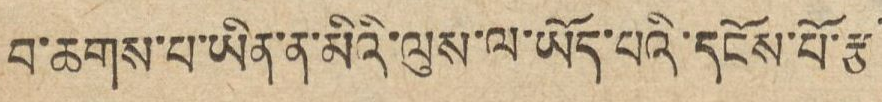བ་ཆགས་པ་ཡིན་ན་མིའི་ལུས་ལ་ཡོད་པའི་དངོས་པོ་རྩ་
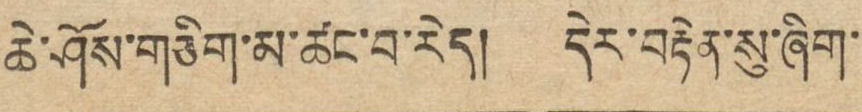ཆེ་ཤོས་གཅིག་མ་ཚང་བ་རེད། དེར་བརྟེན་སུ་ཞིག་
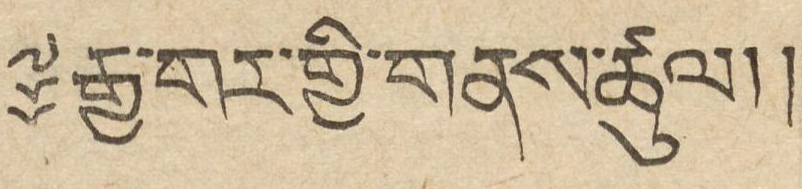༈ རྒྱ་གར་གྱི་གནས་ཚུལ།།
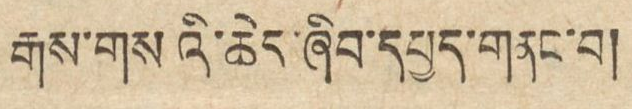རྒས་གསའི་ཆེད་ཞིབ་དཔྱད་གནང་བ།
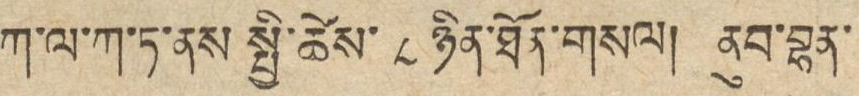ཀ་ལ་ཀ་ཏ་ནས སྤྱི་ཚེས་ ༨ ཉིན་ཐོན་གསལ། ནུབ་བྷན་
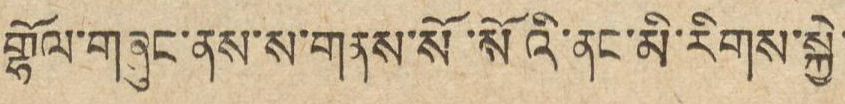གྷོལ་གཞུང་ནས་ས་གནས་སོ་སོའི་ནང་མི་རིགས་སྐྱེ་
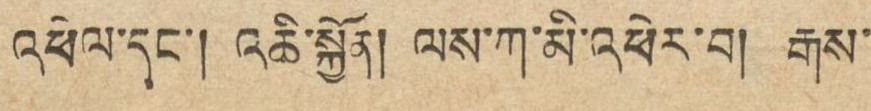འཕེལ་དང་། འཆི་སྐྱོན། ལས་ཀ་མི་འཕེར་བ། རྒས་
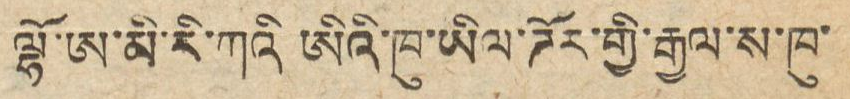ལྷོ་ཨ་མི་རི་ཀའི ཨིའི་ཁུ་ཡིལ་ཌོར་གྱི་རྒྱལ་ས་ཁུ་
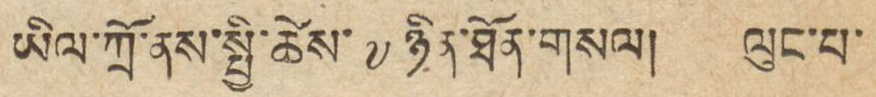ཡིལ་ཀྲོ་ནས་སྤྱི་ཚེས་ ༧ ཉིན་ཐོན་གསལ། ལུང་པ་
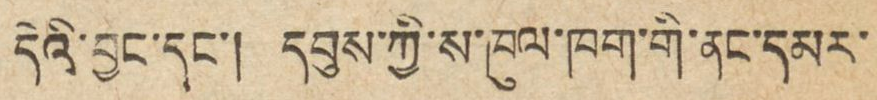དེའི་བྱང་དང་། དབུས་ཀྱི་ས་ཁུལ་ཁག་གི་ནང་དམར་
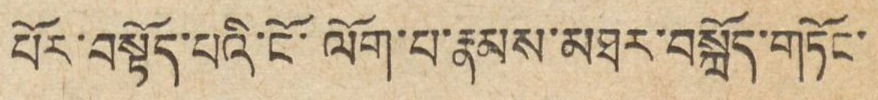པོར་བསྟོད་པའི་ངོ་ལོག་པ་རྣམས་མཐར་བསྐྲོད་གཏོང་
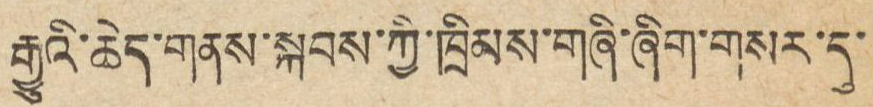རྒྱུའི་ཆེད་གནས་སྐབས་ཀྱི་ཁྲིམས་གཞི་ཞིག་གསར་དུ་
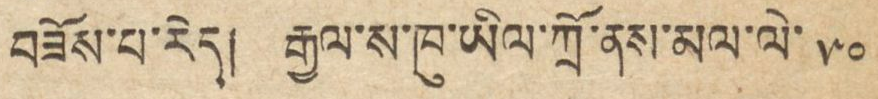བཟོས་པ་རེད། རྒྱལ་ས་ཁུ་ཡིལ་ཀྲོ་ནས་མལ་ལེ་ ༥༠
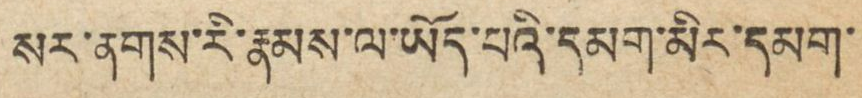སར་ནགས་རི་རྣམས་ལ་ཡོད་པའི་དམག་མིར་དམག་
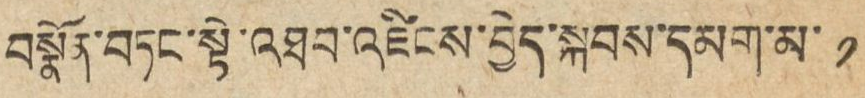བསྣོན་བཏང་སྟེ་འཐབ་འཛིངས་བྱེད་སྐབས་དམག་མ་ ༡
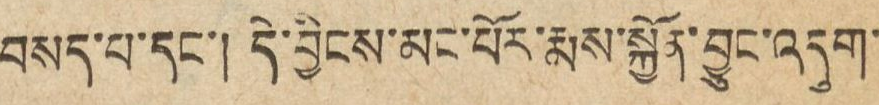བསད་པ་དང་། དེ་བྱིངས་མང་པོར་རྨས་སྐྱོན་བྱུང་འདུག་
